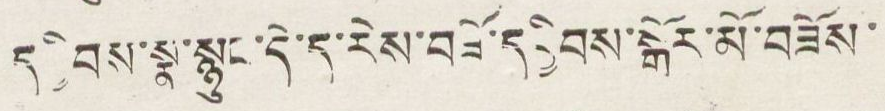དབྱིངས་སྣ་སྙུང་དེ་ད་རེས་བཟོ་དབྱིབས་སྒོར་མོ་བཟོས་
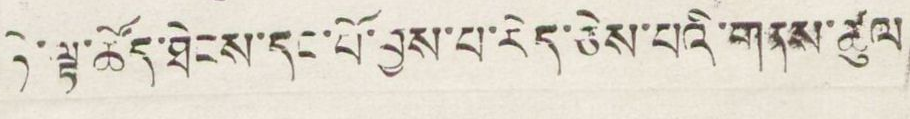དེ་ལྟ་ཚོད་ཐེངས་དང་པོ་བྱས་པ་རེད་ཅེས་པའི་གནས་ཚུལ
